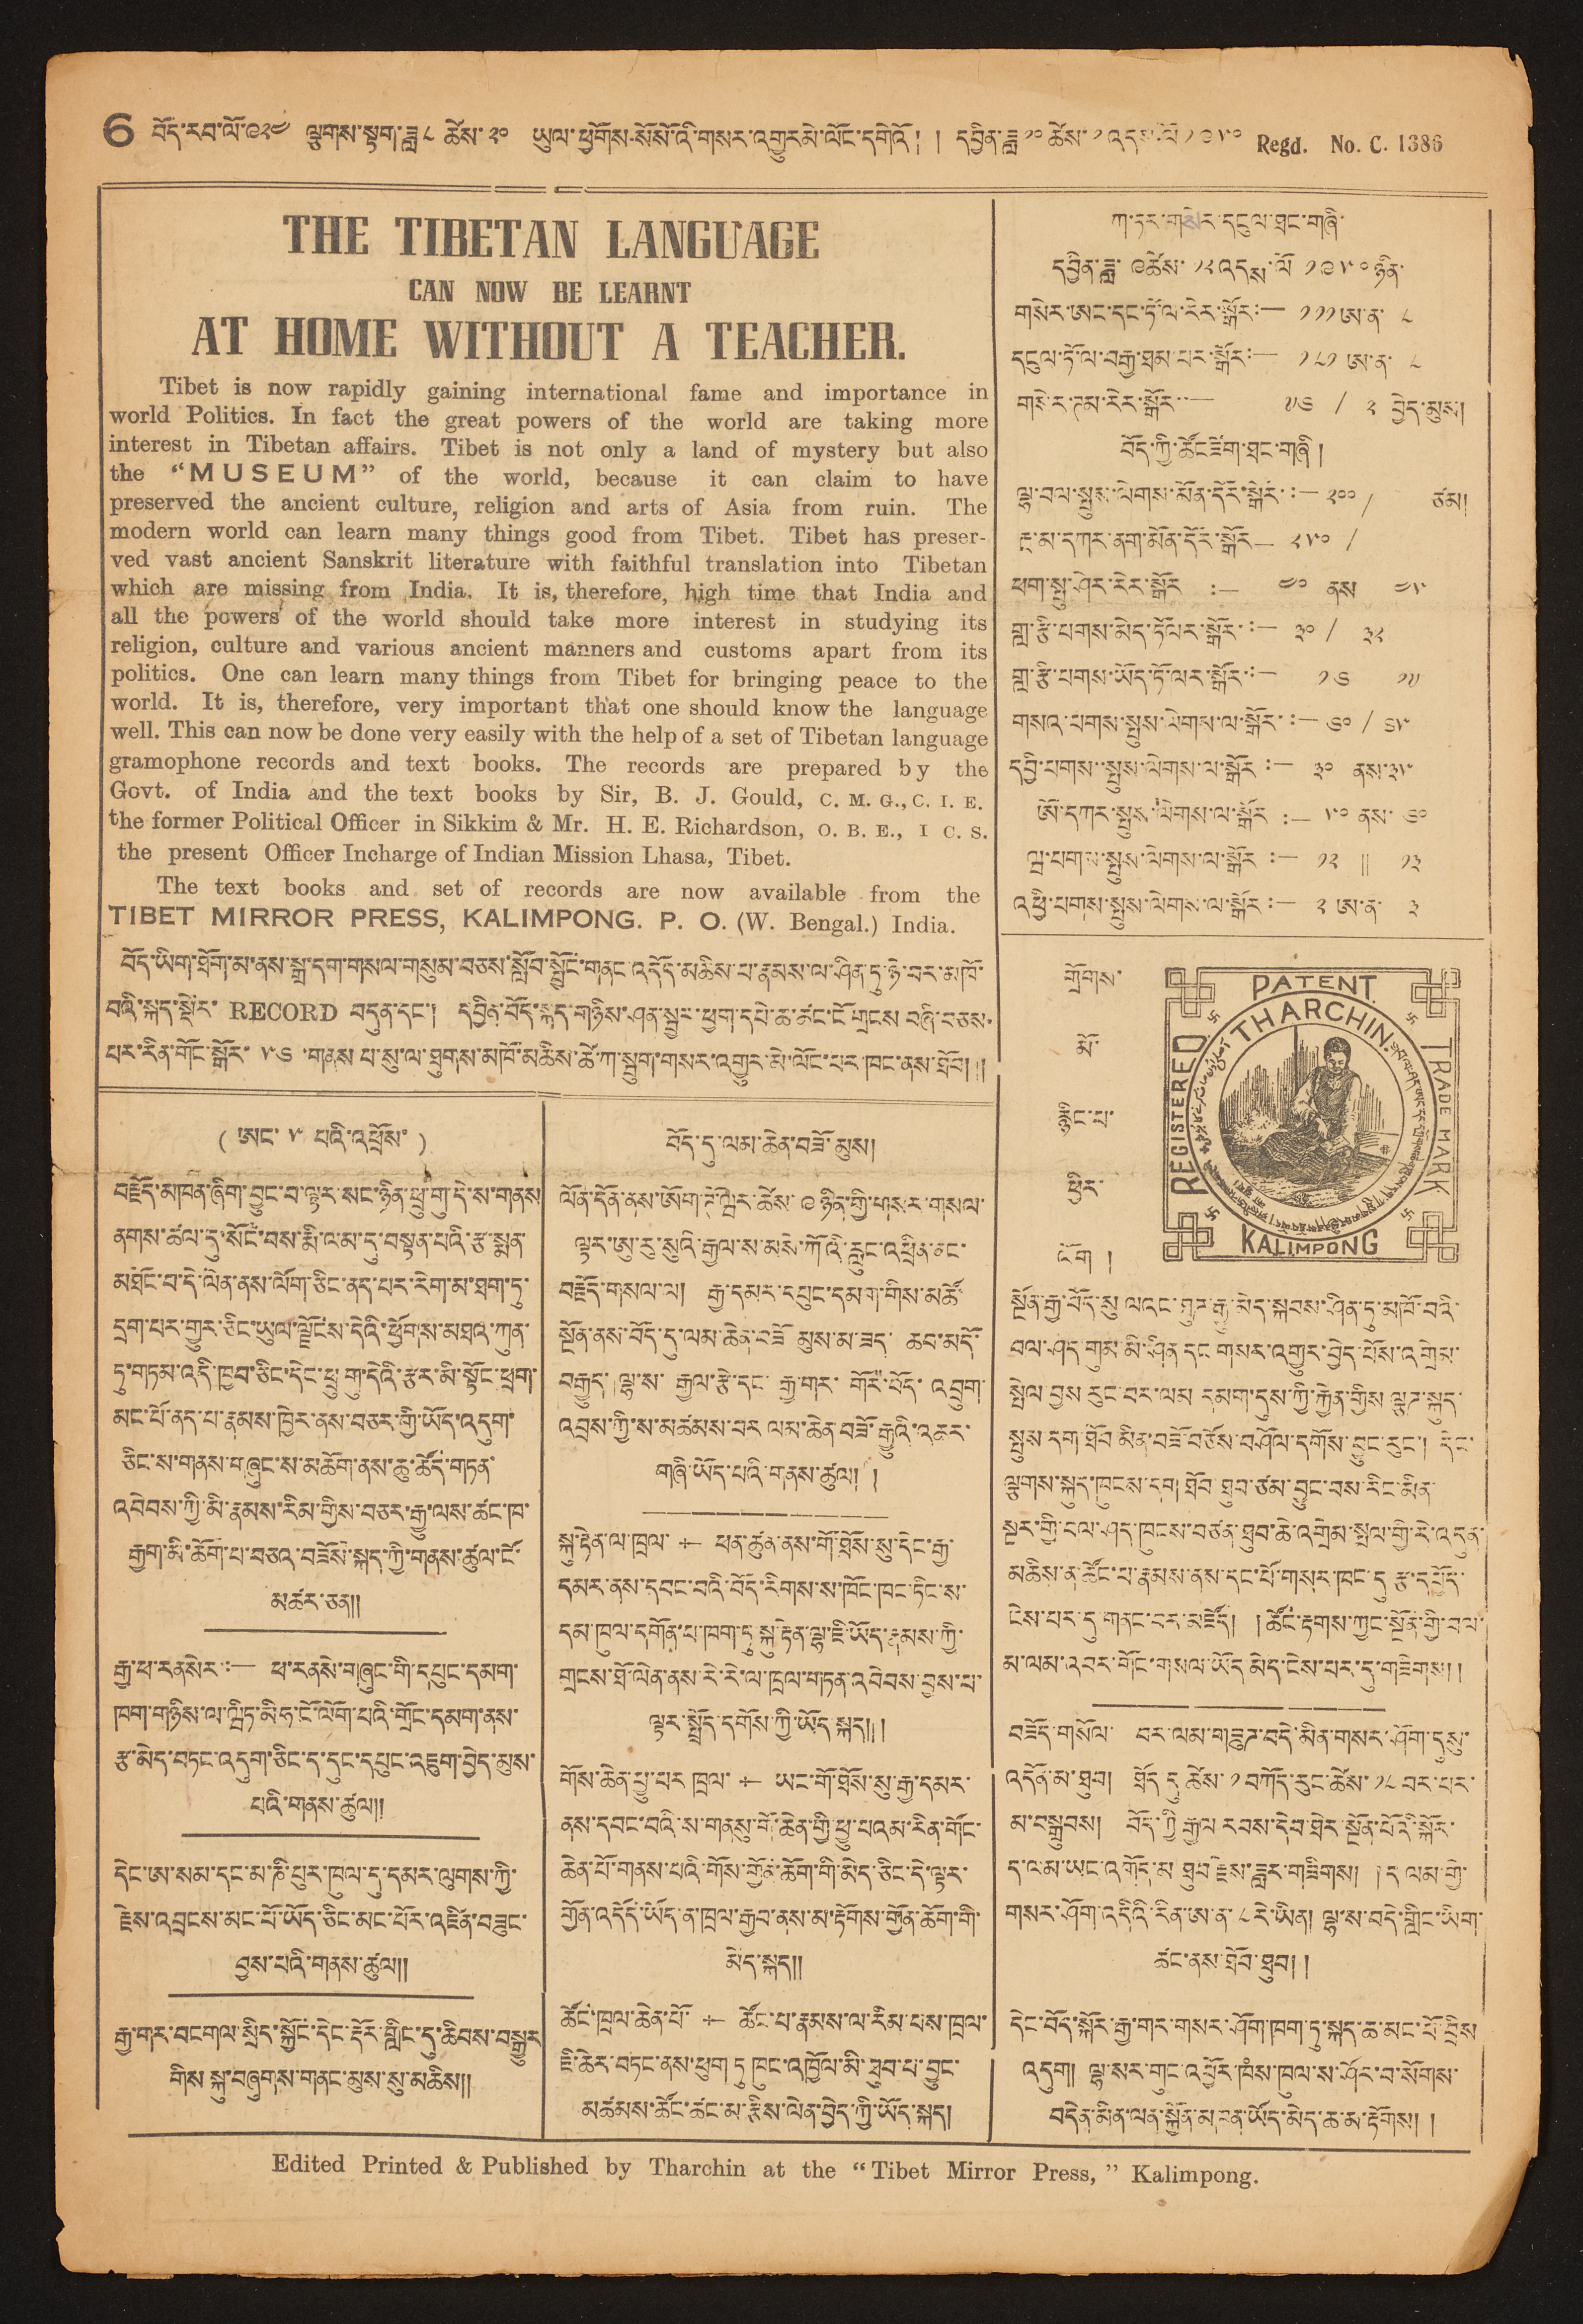6 བོད་རབ་ལོ་ ༩༢༤ ལྕགས་སྟག་ཟླ་ ༨ ཚེས་ ༢༠ ཡུལ་ཕྱོགས་སོ་སོ་འི་གནར་འགྱུར་མེ་ལོང་དགེའོ། །དབྱིན་ཟླ་ ༡༠ ཚེས་༡ འདས་ལོ་ ༡༩༥༠ Regd. No. C. 1386
THE TIBETAN LANGUAGE
CAN NOW BE LEARNT
AT HOME WITHOUT A TEACHER.
Tibet is now rapidly gaining international fame and importance in
world Politics. In fact the great powers of the world are taking more
interest in Tibetan affairs. Tibet is not only a land of mystery but also
the ''MUSEUM'' of the world, because it can claim to have
preserved the ancient culture, religiou and arts of Asia from ruin. The
modern world can learn many thingas good from Tibet. Tibet has preser-
ved vast ancinet Sanskrit literature with faithful translation into Tibetan
which are missing from India. It is, therefore, high time that Indian and
all the power of the world should take more interest in studying its
religious, culture and various ancient manners and customs apart from its
politics. One can learn many things from Tibet for bringing peace to the
world. It is, therefore, very important that one should knoe the language
well. This can now be done very easily with the help of a set of Tibetan Language
gramophone records and text books. The records are prepared by the
Govt. of India and the text books by Sir, B. J. Gould, C. M. G., C. I. E.
the former political Officer in Sikkim & Mr. H. E. Richerdson, O. B. E., I. C. S.
the present officer Incharge of Indian Mission Lhasa, Tibet.
The text books and set of records are now available from the
TIBET MIRROW PRESS, KALIMPONG. P. O. (W. Bengal.) India.
བོད་ཡིག་ཐོག་མ་ནས་སྒྲ་དག་གསལ་གསུམ་བཅས་སློབ་སྦྱོང་གནང་འདོད་མཆིས་པ་རྣམས་ལ་ཤིན་ཏུ་ཉེ་བར་མཁོ་
པའི་སྐད་སྡེར་ RECORD བདུན་དང་། དབྱིན་བོད་སྐད་གཉིས་ཤན་སྦྱར་ཕྱག་དཔེ་ཆ་ཚང་ངོ་གྲངས་བཞི་བཅས་
པར་རིན་གོང་སྒོར་ ༥༦ ་གནས པ་སུ་ལ་ཐུགས་མཁོ་མཆིས་ཚེ་ཀ་སྦུག་གསར་འགྱུར་མེ་ལོང་པར་ཁང་ནས་ཐོབ།།
(ཨང་ ༥ པའི་འཕྲོས་)
བརྗོད་མཁན་ཞིག་བྱུང་བ་ལྟར་སང་ཉིན་ཕྲུ་གུ་དེ་ས་གནས
ནགས་ཚལ་དུ་སོང་བས་རྨི་ལམ་དུ་བསྟན་འཛིན་པའི་རྩ་སྨན་
མཐོང་བ་དེ་ལེན་ནས་ལོག་ཅིང་ནད་པར་རེག་མ་ཐག་ཏུ་
དྲག་པར་གྱུར་ཅིང་ཡུལ་ལྗོངས་དེའི་ཕྱོགས་མཐའ་ཀུན་
ཏུ་གཏམ་འདི་ཁྱབ་ཅིང་དེང་ཕྲུ གུ་དེའི་རྩར་མི་སྟོང་ཕྲག་
མང་པོ་ནད་པ་རྣམས་ཁྱེར་ནས་བཅར་གྱི་ཡོད་འདུག་
ཅིང་ས་གནས་གཞུང་ས་མཆོག་ནས་ཆུ་ཚོད་གཏན་
འབེབས་ཀྱི་མི་རྣམས་རིམ་གྱིས་བཅར་རྒྱུ་ལས་ཚང་ཁ་
རྒྱག་མི་ཆོག་པ་བཅའ་བཟོས་སྐད་ཀྱི་གནས་ཚུལ་ངོ་
མཚར་ཅན།།
རྒྱ་ཕ་རྣ་སེར་:— ཕ་རནསེ་གཞུང་གི་དཔུང་དམག་
ཁག་གཉིས་ལ་ཝིཏ་མིཧ་ངོ་ལོག་པའི་གྲོང་དམག་ནས་
རྩ་མེད་བཏང་འདུག་ཅིང་ད་དུང་དཔུང་འཇུག་བྱེད་མུས་
པའི་གནས་ཚུལ།།
དེང་ཨ་སམ་དང་མ་ཎི་པུར་ཁུལ་དམར་ལུགས་ཀྱི་
རྗེས་འབྲངས་མང་པོ་ཡོད་ཅིང་མང་པོར་འཛིན་བཟུང་
བྱས་པའི་གནས་ཚུལ།།
རྒྱ་གར་བངགལ་སྲིད་སྐྱོང་དེང་རྡོར་གླིང་དུ་ཆིབས་བསྒྱུར
གིས་སྐུ་བཞུགས་གནང་མུས་སུ་མཆིས།།
བོད་དུ་ལམ་ཆེན་བཟོ་མུས།
ལོན་དོན་ནས་ཨོག་ཊོ་ཝར་ཚེས་ ༩ ཉིན་གྱི་གསར་གསལ་
ལྟར་ཨུ་རུ་སུའི་རྒྱལ་ས་མསེ་ཀོའི་རླུང་འཕྲིན་མང་
བརྗོད་གསལ་ལ། རྒྱ་དམར་དཔུང་དམག་གིས་མཚོ་
སྔོན་ནས་བོད་དུ་ལམ་ཆེན་བཟོ མུས་མ་ཟད་ཆབ་མདོ་
བརྒྱུད་ ལྷ་ས་ རྒྱལ་རྩེ་དང་ རྒྱ་གར་ གོར་བོད་ འབྲུག་
འབྲས་ཀྱི་ས་མཚམས་བར ལམ་ཆེན་བཟོ་རྒྱུའི་འཆར་
གཞི་ཡོད་པའི་གནས་ཚུལ། །
སྐུ་རྟེན་ལ་ཁྲལ་ † ཕན་ཚུལ་ནས་གོ་ཐོས་སུ་དེང་རྒྱ་
དམར་ནས་དབར་བའི་བོད་རིགས་ས་ཁོང་ཁང་ཏིང་ས་
དམ་ཁུལ་དགོན་པ་ཁག་ཏུ་སྐུ་རྟེན་ལྷ་ཇི་ཡོད་རྣམས་ཀྱི་
གྲངས་ཐོ་ལེན་ནས་རེ་རེ་ལ་ཁྲལ་གཏན་འབེབས་བྱས་པ་
ལྟར་སྤྲོད་དགོས་ཀྱི་ཡོད་སྐད། །
གོས་ཆེན་ཕྱུ་པར ཁྲལ་ † ཡང་གོ་ཐོས་སུ་རྒྱ་དམར་
ནས་དབང་བའི་ས་གནསུ་གོ་ཆེན་གྱི་ཕྱུ་པའམ་རིན་གོང་
ཆེན་པོ་གནས་པའི་གོས་གྱོན་ཆོག་གི་མེད་ཅིང་དེ་ལྟར་
གྱོན་འདོད་ཡོན་ན་ཁྲལ་རྒྱབ་ནས་མ་རྟོགས་གྱོན་ཆོག་གི་
མེད་སྐད།།
ཚོང་ཁྲལ་ཆེན་པོ་ † ཚོང་པ་རྣམས་ལ་རིམ་པས་ཁྲལ་
ཇི་ཆེར་བཏང་ནས་ཕུག ཏུ་ཁུང་འཁྱོལ་མི་ཐུབ་པ་བྱུང་
མཚམས་ཚོང་ཚང་མ་རྩིས་ལེན་བྱེད་ཀྱི་ཡོད་སྐད།
ཀ་ཏར་གསེར་དངུལ་ཐང་གཞི་
དབྱིན་ཟླ་ ༩ ཚེས་ ༡༢ འདས་ལོ ༡༩༥༠ ཉིན་
གསེར་ཨང་དང་ཏོ་ལ་རེར་སྒོར:— ༡༡༡ ཨ་ན་ ༨
དངུལ་ཏོ་ལ་བརྒྱ་ཐམ་པར་སྒོར:— ༡༨༡ ཨ་ན་ ༨
གསེར་ཊམ་རེར་སྒོར:— ༧༦ /༢ བྱེད་མུས།
བོད་ཀྱི་ཚོང་ཟིག་ཐང་གཞི །
ལྷ་བལ་སྤུས་ལེགས་མོན་དོར་སྒེར་:— ༢༠༠/ ཙམ།
རྔ་མ་དཀར་ནག་མོན་དོར་སྒོར ༢༥༠ /
ཕག་སྤུ་ཤེར་རེར་སྒོར:— ༤༠ ནས་ ༤༥
གླ་རྩི་པགས་མེད་ཏོལར་སྒོར་:— ༣༠ / ༣༢
གླ་རྩི་པགས་མེད་ཏོ་ལར་སྒོར་:— ༡༦ ༡༧
གསའ་པགས་སྤུས་ལེགས་ལ་སྒོར་:— ༦༠ / ༦༥
དབྱེ་པགས་སྤུས་ལེགས་ལ་སྒོར་:— ༣༠ ནས་ ༣༥
ཨོ་དཀར་སྤུས་ལེགས་ལ་སྒོར་:— ༥༠ ནས་ ༦༠
ཝ་པག་ལ་སྤུས་ལེགས་ལ་སྒོར་:— ༡༢ || ༡༣
འཕྱི་པགས་སྤུས་ལེགས་ལ་སྒོར:— ༢ ཨ་ན་ ༣
གྲོགས་
མོ་
རྙིང་པ་
ཕྱིར་
ལོག །
སྔོན་རྒྱ་བོད་སུ ལའང་ཐུཊ་རྒྱུ་མེད་སྐབས་ཤིན་མཐོ་བའི་
བལ་ཤད གུམ་མི་ཤིན་དང་གསར་འགྱུར་བྱེད་པོས་འགྲེམ་
སྤེལ་བྱས་རུང་བར་ལམ དམག་དུས་ཀྱི་རྐྱེན་གྱིས་ལྕཊ་སྐུད་
སྤུས དག་ཐོབ་མིན་བཟོ་བཅོས་བཤོལ་དགོས་བྱུང་རུང་། དེང་
ལྕགས་སྐུད་ཁུངས་དག་ཐོབ་ཐུབ་ཙམ་བྱུང་བས་རིང་མིན་
སྔར་གྱི་བལ་ཤད་ཁུངས་བཙན་ཐུབ་ཆེ་འགྲེམ་སྤལ་གྱི་རེ་འདུན་
མཆིས་ན་ཚོང་པ་རྣམས་ནས་དང་པོ་གསར་ཁང་དུ་རྩ་དཔྱོད་
ངེས་པེར་དུ་གནང་བར་མཛོད། །ཚོང་རྟགས་ཀྱང་སྔོན་གྱི་བལ་
མ་ལམ་འབར་གོང་གསལ་ཡོད་མེད་ངེས་པར་དུ་གཟིགས།།
བཟོད་གསོལ་ བར་ལམ་གཟུཌ་བདེ་མིན་གསར་ཤོག་དུསུ་
འདོན་ལ་ཐུབ། ཐོད་དུ་ཚེས་ ༡ བཀོད་རུང་ཚེས་ ༡༨ བར་པར་
མ་བ༹སྒྲུབས། བོད་ཀྱི་རྒྱལ་རབས་དེབ་ཐེར་སྔོན་པོའི་སྐོར་
ད་ལམ་ཡང་འགོད་མ ཐུབ་རྗེས་ཟླར་གཟིགས། །ད་ལམ་གྱི་
གསར་ཤོག་འདིའི་རིན་ཨ་ན་ ༨ རེ་ཡིན། ལྷ་ས་བདེ་གླིང་ཡིག་
ཚང་ནས་ཐོབ་ཐུབ།།
དེང་བོད་སྐོར་རྒྱ་གར་གསར་ཤོག་ཁག་ཏུ་སྐད་ཆ་མང་པོ་བྲིས
འདུག། ལྷ་སར་གུང་འབྱོར་ཁཾས་ཁུལ་ས་ཤོར་བ་སོགས་
བདེན་མིན་ལན་སྐྱོན་མཁན་ཡོད་མེད་ཆ་མ་རྟོགས། །
Edited Printed & Published by Tharchin at the ''Tibet Mirror Press,'' Kalimpong.
